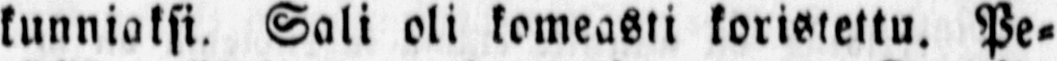kunniaksi. Sali oli komeasti koristettu. Pe-
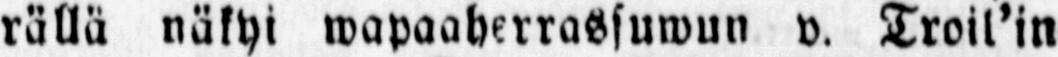rällä näkyi wapaaherrassuwun v. Troil'in
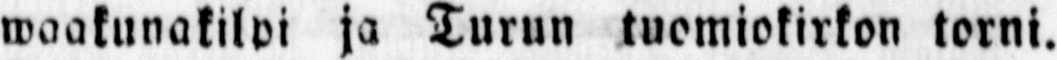waakunakilpi ja Turun tuomiokirkon torni.
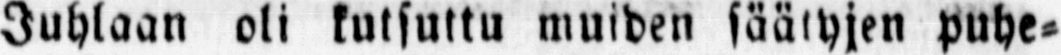Juhlaan oli kutsuttu muiden säätyjen puhe-
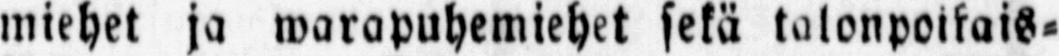miehet ja warapuhemiehet sekä talonpoikais-
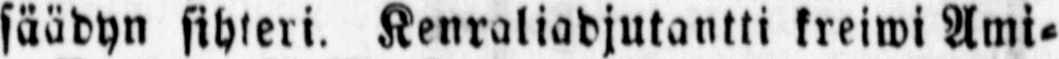säädyn sihteri. Kenraliadjutantti kreiwi Ami-
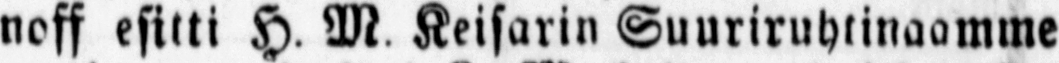noff esitti H. M. Keisarin Suuriruhtinaamme
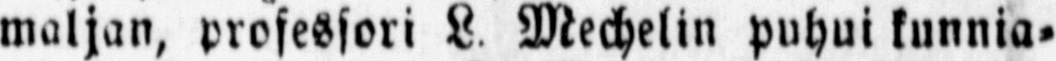maljan, professori L. Mechelin puhui kunnia-
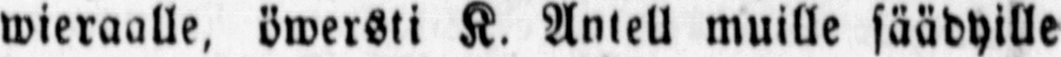wieraalle, öwersti K. Antell muille säädyille
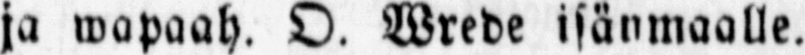ja wapaah. O. Wrede isänmaalle.
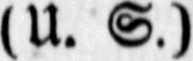(U. S.)
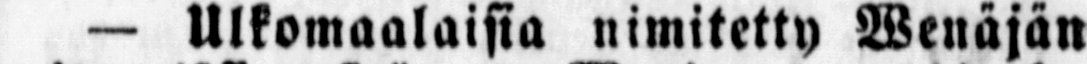— Ulkomaalaisia nimitetty Wenäjän
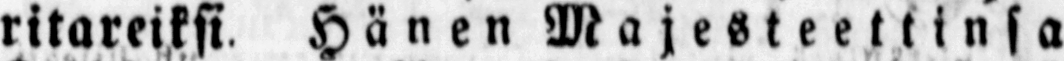ritareiksi. Hänen Majesteettinsa
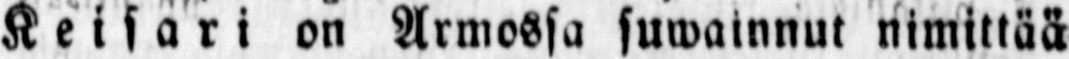Keisari on Armossa suwainnut nimittää
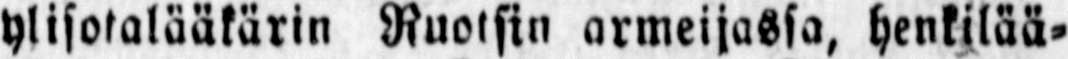ylisotalääkärin Ruotsin armeijassa, henkilää-
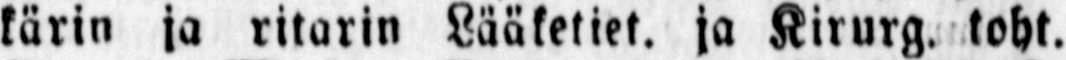kärin ja ritarin Lääketiet, ja Kirurg. toht.
